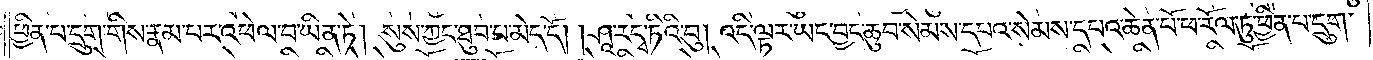ཕྱིན་པ་དྲུག་གིས་རྣམ་པར་འཕེལ་བ་ཡིན་ཏེ། སུས་ཀྱང་ཐུབ་པ་མེད་དོ། །ཤཱ་ར་དྭ་ཏིའི་བུ། འདི་ལྟར་ཡང་བྱང་ཆུབ་སེམས་དཔའ་སེམས་དཔའ་ཆེན་པོ་ཕ་རོལ་ཏུ་ཕྱིན་པ་དྲུག་
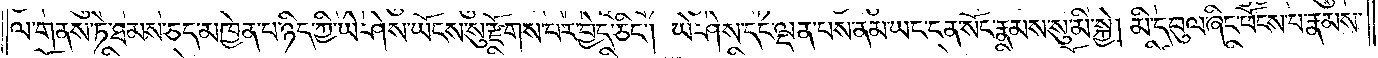ལ་གནས་ཏེ་ཐམས་ཅད་མཁྱེན་པ་ཉིད་ཀྱི་ཡེ་ཤེས་ཡོངས་སུ་རྫོགས་པར་བྱེད་ཅིང༌། ཡེ་ཤེས་དང་ལྡན་པས་ནམ་ཡང་ངན་སོང་རྣམས་སུ་མི་སྐྱེ། མི་དབུལ་ཞིང་ཕོངས་པ་རྣམས་
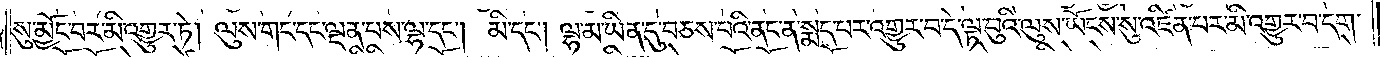སུ་མྱོང་བར་མི་འགྱུར་ཏེ། ལུས་གང་དང་ལྡན་པས་ལྷ་དང༌། མི་དང༌། ལྷ་མ་ཡིན་དུ་བཅས་པའི་ནང་ན་སྨད་པར་འགྱུར་བ་དེ་ལྟ་བུའི་ལུས་ཡོངས་སུ་འཛིན་པར་མི་འགྱུར་བ་དག་
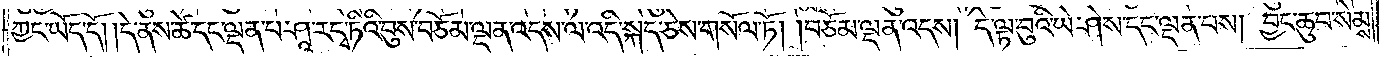ཀྱང་ཡོད་དོ། །དེ་ནས་ཚེ་དང་ལྡན་པ་ཤཱ་ར་དྭ་ཏིའི་བུས་བཅོམ་ལྡན་འདས་ལ་འདི་སྐད་ཅེས་གསོལ་ཏོ། །བཅོམ་ལྡན་འདས། དེ་ལྟ་བུའི་ཡེ་ཤེས་དང་ལྡན་པས། བྱང་ཆུབ་སེམས་
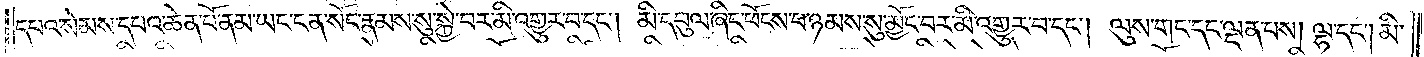དཔའ་སེམས་དཔའ་ཆེན་པོ་ནམ་ཡང་ངན་སོང་རྣམས་སུ་སྐྱེ་བར་མི་འགྱུར་བ་དང༌། མི་དབུལ་ཞིང་ཕོངས་པ་ཉམས་སུ་མྱོང་བར་མི་འགྱུར་བ་དང༌། ལུས་གང་དང་ལྡན་པས། ལྷ་དང༌། མི་
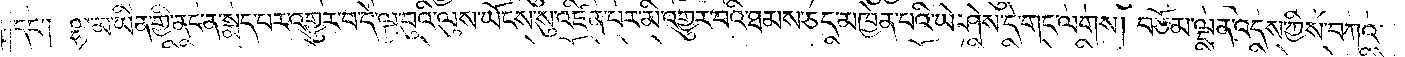དང༌། ལྷ་མ་ཡིན་གྱི་ནང་ན་སྨད་པར་འགྱུར་བ་དེ་ལྟ་བུའི་ལུས་ཡོངས་སུ་འཛིན་པར་མི་འགྱུར་བའི་ཐམས་ཅད་མཁྱེན་པའི་ཡེ་ཤེས་དེ་གང་ལགས། བཅོམ་ལྡན་འདས་ཀྱིས་བཀའ་
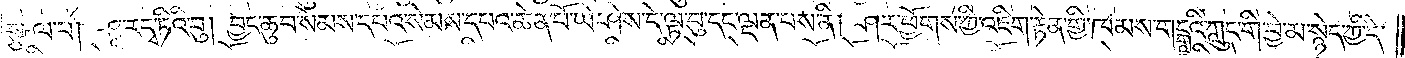སྩལ་པ། ཤཱ་རདྭ་ཏིའི་བུ། བྱང་ཆུབ་སེམས་དཔའ་སེམས་དཔའ་ཆེན་པོ་ཡེ་ཤེས་དེ་ལྟ་བུ་དང་ལྡན་པས་ནི། ཤར་ཕྱོགས་ཀྱི་འཇིག་རྟེན་གྱི་ཁམས་གངྒཱའི་ཀླུང་གི་བྱེ་མ་སྙེད་ཀྱི་དེ་
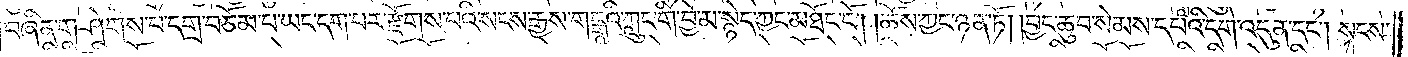བཞིན་གཤེགས་པ་དགྲ་བཅོམ་པ་ཡང་དག་པར་རྫོགས་པའི་སངས་རྒྱས་གངྒཱའི་ཀླུང་གི་བྱེ་མ་སྙེད་ཀྱང་མཐོང་ངོ༌། །ཆོས་ཀྱང་ཉན་ཏོ། །བྱང་ཆུབ་སེམས་དཔའི་དགེ་འདུན་དང༌། སངས་
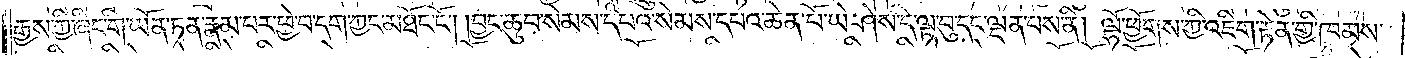རྒྱས་ཀྱི་ཞིང་གི་ཡོན་ཏན་རྣམ་པར་ཕྱེ་བ་དག་ཀྱང་མཐོང་ངོ༌། །བྱང་ཆུབ་སེམས་དཔའ་སེམས་དཔའ་ཆེན་པོ་ཡེ་ཤེས་དེ་ལྟ་བུ་དང་ལྡན་པས་ནི། ལྷོ་ཕྱོགས་ཀྱི་འཇིག་རྟེན་གྱི་ཁམས་
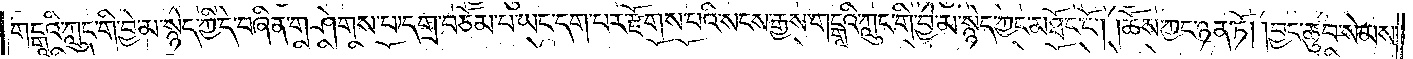གངྒཱའི་ཀླུང་གི་བྱེ་མ་སྙེད་ཀྱི་དེ་བཞིན་གཤེགས་པ་དགྲ་བཅོམ་པ་ཡང་དག་པར་རྫོགས་པའི་སངས་རྒྱས་གངྒཱའི་ཀླུང་གི་བྱེ་མ་སྙེད་ཀྱང་མཐོང་ངོ༌། །ཆོས་ཀྱང་ཉན་ཏོ། །བྱང་ཆུབ་སེམས་
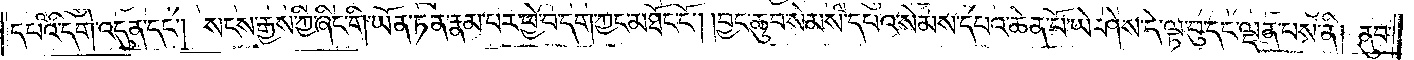དཔའི་དགེ་འདུན་དང༌། སངས་རྒྱས་ཀྱི་ཞིང་གི་ཡོན་ཏན་རྣམ་པར་ཕྱེ་བ་དག་ཀྱང་མཐོང་ངོ༌། །བྱང་ཆུབ་སེམས་དཔའ་སེམས་དཔའ་ཆེན་པོ་ཡེ་ཤེས་དེ་ལྟ་བུ་དང་ལྡན་པས་ནི། ནུབ་
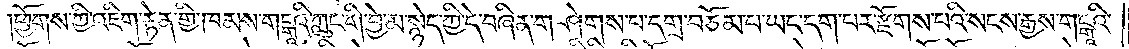ཕྱོགས་ཀྱི་འཇིག་རྟེན་གྱི་ཁམས་གངྒཱའི་ཀླུང་གི་བྱེ་མ་སྙེད་ཀྱི་དེ་བཞིན་གཤེགས་པ་དགྲ་བཅོམ་པ་ཡང་དག་པར་རྫོགས་པའི་སངས་རྒྱས་གངྒཱའི་
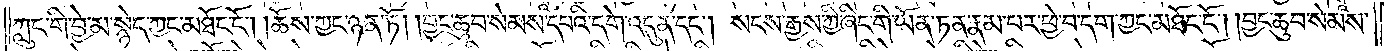ཀླུང་གི་བྱེ་མ་སྙེད་ཀྱང་མཐོང་ངོ༌། །ཆོས་ཀྱང་ཉན་ཏོ། །བྱང་ཆུབ་སེམས་དཔའི་དགེ་འདུན་དང༌། སངས་རྒྱས་ཀྱི་ཞིང་གི་ཡོན་ཏན་རྣམ་པར་ཕྱེ་བ་དག་ཀྱང་མཐོང་ངོ༌། །བྱང་ཆུབ་སེམས་
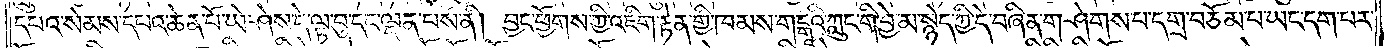དཔའ་སེམས་དཔའ་ཆེན་པོ་ཡེ་ཤེས་དེ་ལྟ་བུ་དང་ལྡན་པས་ནི། བྱང་ཕྱོགས་ཀྱི་འཇིག་རྟེན་གྱི་ཁམས་གངྒཱའི་ཀླུང་གི་བྱེ་མ་སྙེད་ཀྱི་དེ་བཞིན་གཤེགས་པ་དགྲ་བཅོམ་པ་ཡང་དག་པར་
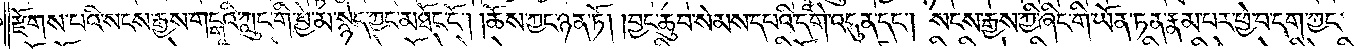རྫོགས་པའི་སངས་རྒྱས་གངྒཱའི་ཀླུང་གི་བྱེ་མ་སྙེད་ཀྱང་མཐོང་ངོ༌། །ཆོས་ཀྱང་ཉན་ཏོ། །བྱང་ཆུབ་སེམས་དཔའི་དགེ་འདུན་དང༌། སངས་རྒྱས་ཀྱི་ཞིང་གི་ཡོན་ཏན་རྣམ་པར་ཕྱེ་བ་དག་ཀྱང་
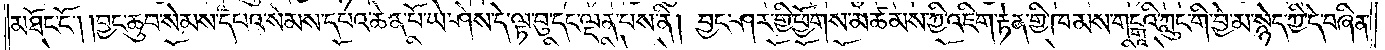མཐོང་ངོ༌། །བྱང་ཆུབ་སེམས་དཔའ་སེམས་དཔའ་ཆེན་པོ་ཡེ་ཤེས་དེ་ལྟ་བུ་དང་ལྡན་པས་ནི། བྱང་ཤར་གྱི་ཕྱོགས་མཚམས་ཀྱི་འཇིག་རྟེན་གྱི་ཁམས་གངྒཱའི་ཀླུང་གི་བྱེ་མ་སྙེད་ཀྱི་དེ་བཞིན་
